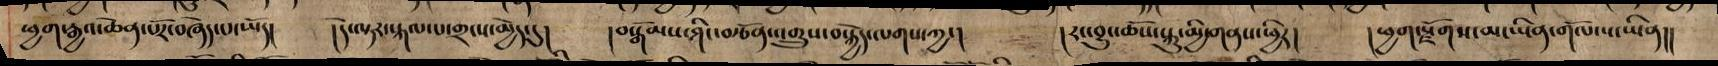ཕྱག་རྒྱའ་ཆེན་པོར་བཞེད་པ་ཡོད། །དེ་ལྟར་སྐལ་པ་གྲངས་མྱེད་དུ། །བསྒོམས་ཤིང་བརྩོན་འགྲུས་བསྐྱེད་ལགས་ཀྱང། །རང་བྱུང་ཆོས་སྐུ་མྱི་གནས་ཕྱིར། །ཕྱག་སྫོགས་མ་ཡིན་གོལ་ས་ཡིན།།
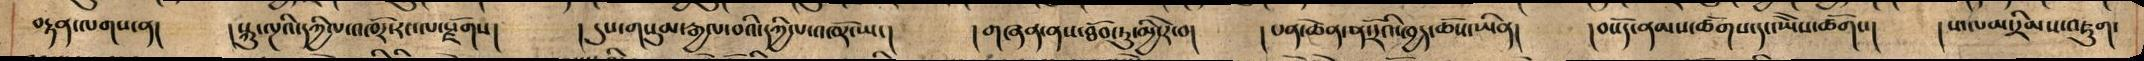བརྟན་ལགས་ན། །སྐུ་ལྔའི་དཀྱིལ་འཁོར་རང་ལ་སྫོགས། །དུས་གསུམ་རྒྱལ་བའི་དཀྱིལ་འཁོར་ཡང། །གཞན་ནས་ཐོབ་ཏུ་མྱི་རེ་བ། །པན་ཆེན་ན་རོའི་ཁྱད་ཆོས་ཡིན། །བསོད་ནམས་ཚོགས་དང་ཡཻ་ཚོགས། །ས་ལམ་དྲི་མས་འཇུག་
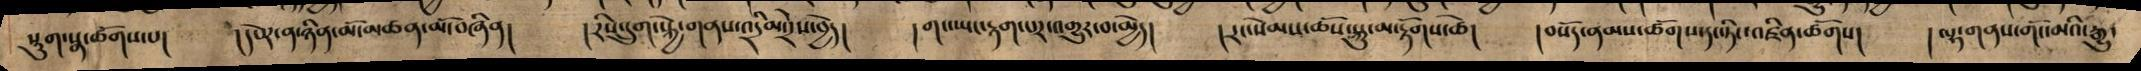སྡུག་སྣ་ཚོགས་པ། །དཔེར་ན་ཉིན་མོ་མཚན་བཞིན། །རིས་དྲུག་སྐྱེ་གནས་འདྲིམ་དྲེས་བྱེད། །གང་ཡང་རྟག་པར་འགྱུར་བ་མྱེད། །རང་སེམས་ཆོས་སྐུ་མ་རྟོགས་ཚེ། །བསོད་ནམས་ཚོགས་དང་ཏིང་འཛིན་ཚོགས། །ལྷ་གནས་གོང་མའི་རྒྱུ་
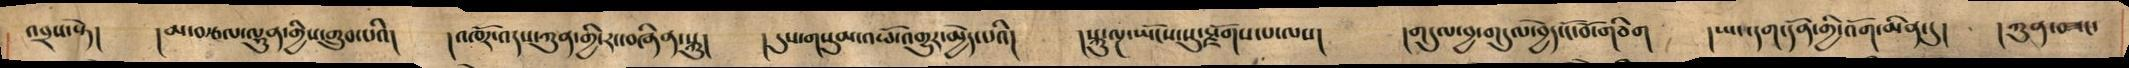འབྲས་སྟེ། །མ་བརྩལ་ལྷུན་གྱིས་གྲུབ་པའི། །འཁོར་འདས་ཀུན་གྱི་རང་བཞིན་སྐུ། །དུས་གསུམ་འཕོ་འགྱུར་མྱེད་པའི། །སྐུ་ལྔ་ཡོངས་སུ་སྫོགས་པ་ལས། །གདུལ་བྱ་གདུལ་བྱེད་ངོ་བོ་གཅིག །ཡང་དག་དོན་གྱི་འོག་མིན་དུ། །ཀུན་བཟང་
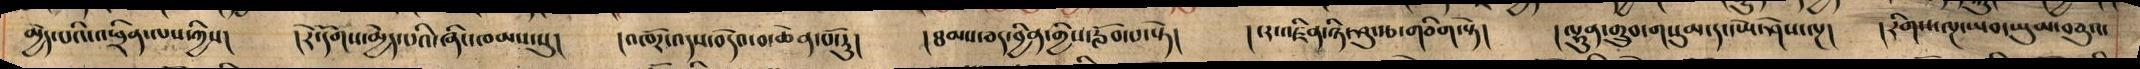མྱེད་པའི་འཕྲིན་ལས་ཀྱིས། །རེ་དོགས་མྱེད་པའི་ཞིང་ཁམས་སུ། །འཁོར་འདས་བདེའ་བ་ཆེན་པོ་རུ། །ཐམས་ཅད་བྱིན་གྱིས་རློབ་པ་སྟེ། །ངར་འཛིན་ཉི་ཤུ་རྩ་གཅིག་སྟེ། །ལྷུན་གྲུབ་གསུམ་དང་ཡེ་ཤེས་ལྔ། །རིགས་ལྔ་ཡབ་ཡུམ་བཅུའ་
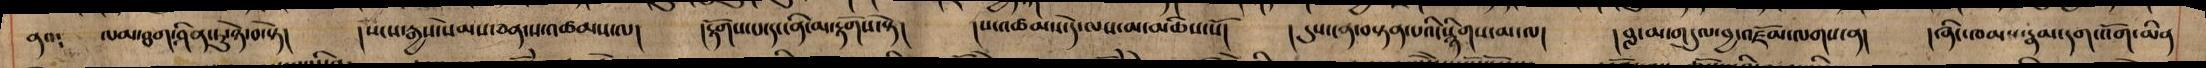ནའ༴ ལམ་ཐག་ཤིན་ཏུ་ཉེ་བ་སྟེ། །སངས་རྒྱས་སེམས་ཅན་ས་འཚམས་ལ། །རྟོགས་པ་དང་ནི་མ་རྟོགས་སྟེ། །ས་འཚམས་དེ་ལས་མ་མཆིས་སོ། །དུས་ངན་བསྟན་པའི་སྙིགས་མ་ལ། །བླ་མ་གདུལ་བྱ་འཛོམ་ལགས་ན། །ཞིང་ཁམས་རྣམ་དག་འོག་མིན་
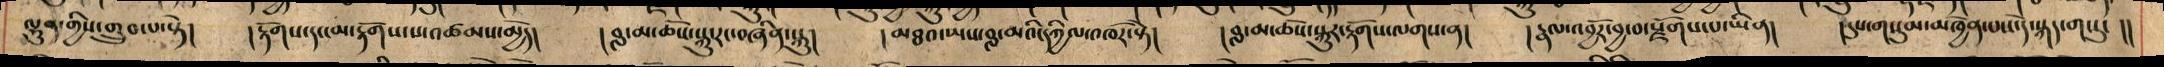ལྷུན་གྱིས་གྲུབ་པ་སྟེ། །རྟོགས་དང་མ་རྟོགས་ས་འཚམས་མྱེད། །བླ་མ་ཆོས་སྐུ་རང་བཞིན་སྐུ། །མཐའ་ཡས་བླ་མའི་དཀྱིལ་འཁོར་སྟེ། །བླ་མ་ཆོས་སྐུར་རྟོགས་ལགས་ན། །རྣལ་འབྱོར་བྱ་བ་སྫོགས་པ་ཡིན། །དུས་གསུམ་མཁྱེན་པས་དེ་སྐད་དུ་ །།
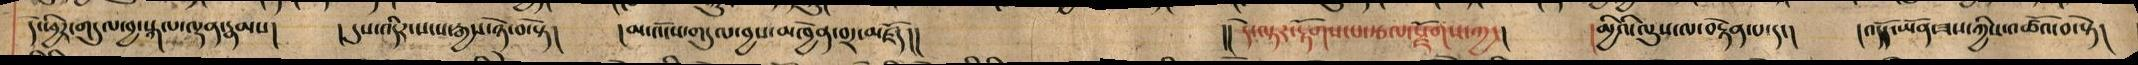དེ་ཕྱིར་གདུལ་བྱ་སྐལ་ལྡན་རྣམས། །དུས་འདིར་སངས་རྒྱས་ཉེ་བ་སྟེ། །མ་འོངས་གདུལ་བྱས་མཁྱེན་བར་མཛོད།། །།དེ་ལྟར་རྟོགས་པ་རྩལ་སྫོགས་ཀྱང། །མྱིའི་ལུས་ལ་བརྟེན་པ་དང། །འདོད་ཡོན་ཟས་ཀྱིས་འཚོའ་བ་སྟེ།
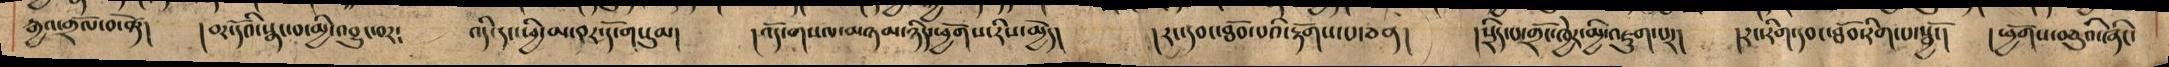རྒྱའ་གྲོལ་སྟེ། །བར་དོའི་སྣང་བ་མྱི་འབྱུང་བར༴ འདི་དང་ཕྱི་མ་བར་དོ་གསུམ། །འོད་གསལ་མཉམ་ཉིད་ཕྱོགས་རིས་མྱེད། །རང་དབང་ཐོབ་པའི་རྟོགས་པ་ཅན། །སྲིད་པ་གྲོང་ཁྱེར་མྱི་འཇུག་པར། །རང་རིག་དབང་ཐོབ་རིག་པ་སྦྱོང། །ཕྱོགས་བཅུའི་ཞིང་
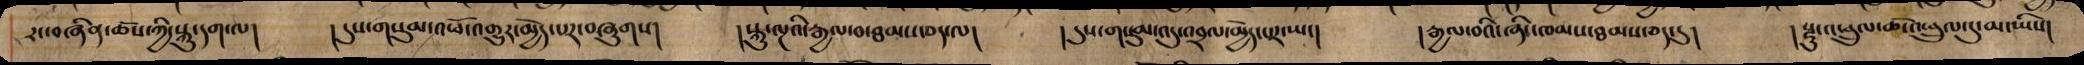རང་བཞིན་ཆོས་ཀྱི་སྐུ་དག་ལ། །དུས་གསུམ་འཕོ་འགྱུར་མྱེད་པར་བཞུགས། །སྐུ་ལྔའི་རྒྱལ་བ་ཐམས་ཅད་ལ། །དུས་གསུམ་འདུ་འབྲལ་མྱེད་པར་ཡང། །རྒྱལ་བའི་ཞིང་ཁམས་ཐམས་ཅད་དུ། །སྫུ་འཕྲུལ་ཆོ་འཕྲུལ་དུ་མ་ཡིས།
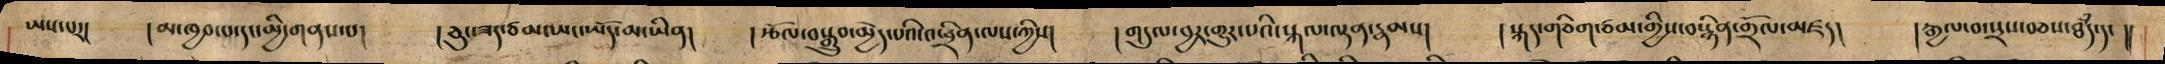ཡས་པར། །མ་ཁྱབ་པ་དང་མྱི་གནས་པ། །ཅུང་ཟད་ཙམ་ཡང་ཡོད་མ་ཡིན། །རྩོལ་བསྒྲུབ་མྱེད་པའི་འཕྲིན་ལས་ཀྱིས། །གདུལ་བྱར་གྱུར་པའི་སྐལ་ལྡན་རྣམས། །སྐད་གཅིག་ཙམ་གྱིས་བསྙིན་གྲོལ་མཛད། །རྒྱལ་བ་སྲས་བཅས་ཐཾད་དང །།
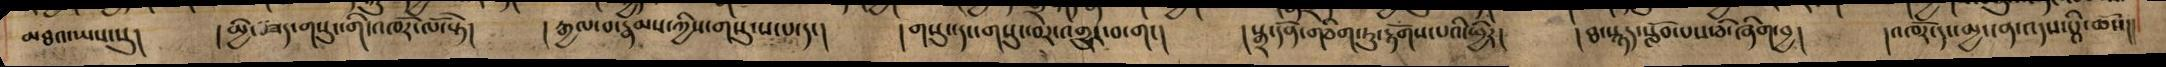མཐའ་ཡས་སུ། །མྱི་ཟད་གསུང་གི་འཁོར་ལོ་སྟེ། །རྒྱལ་བ་རྣམས་ཀྱིས་གསུངས་པ་དང། །གསུང་དང་གསུང་བར་འགྱུར་བ་གང། །སྒྲ་དོན་གཅིག་ཏུ་རྟོགས་པའི་ཕྱིར། །ཐ་སྙད་སློབ་པས་ཅི་ཞིག་བྱ། །འཁོར་དང་མྱ་ངན་འདས་པི་ཆོས།།
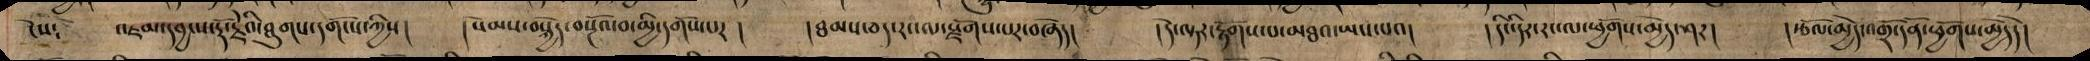ངེས༴ འཇམ་དབཡྔས་རྡོ་རྗེའི་ཐུགས་དགོངས་ཀྱིས། །སེམས་བསྐྱེད་བསྔོའ་བ་མྱི་དགོས་པར། ཐམས་ཅད་རང་ལ་སྫོགས་པར་བཞེད། །དེ་ལྟར་རྟོགས་པ་མཐའ་ཡས་པའ། །དི་དིར་རང་ལ་ཕྱོགས་མྱེད་ཤར། །རྩོལ་མྱེད་འགྲོ་དོན་ཕྱོགས་མྱེདདེ།
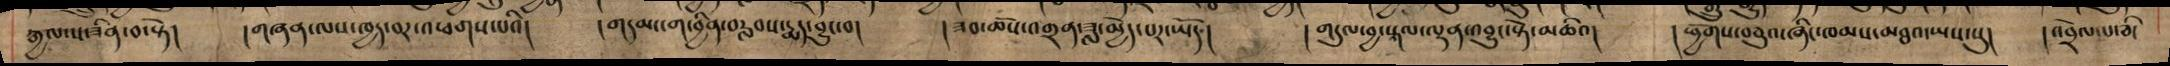རྒྱལ་ས་ཟིན་བ་སྟེ། །གཞན་ལས་ཁྱད་བར་འཕགས་པའི། །གདམ་ངག་བྱིན་བརླབས་རྨད་བྱུང་བ། །ཟབ་ཆོས་འགྲན་ཟླ་མྱེད་པར་ཡོད། །གདུལ་བྱ་སྐལ་ལྡན་འབྱུང་སྟེ་མཆིའ། །ཕྱོགས་བཅུའ་ཞིང་ཁམས་མཐའ་ཡས་སུ། །འབྲེལ་པ་ཅི་
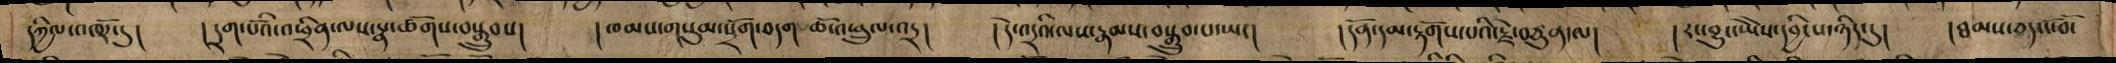དཀྱིལ་འཁོར་དུ། །དྲག་པོའི་འཕྲིན་ལས་སྣ་ཚོགས་བསྒྲུབས། །ཁམས་གསུམ་སྲོག་བདག་ཆོ་འཕྲུལ་འདྲ། །དེ་འདྲའི་ལས་རྣམས་བསྒྲུབ་པ་ཡང། །དོན་དམ་རྟོགས་པའི་རྗེ་བཙུན་ལ། །རང་བྱུང་ཡཻས་དབྱིངས་ཉིད་དུ། །ཐམས་ཅད་ངོ་བོ་
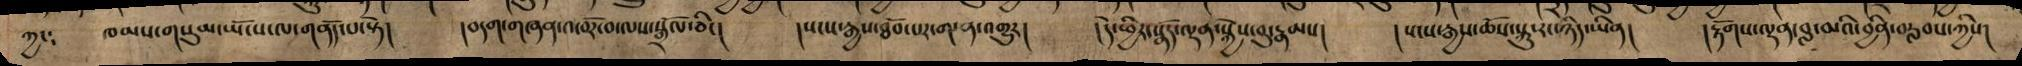ཀྱང༴ ཁམས་གསུམ་ཡོངས་ལ་གནོད་པ་སྟེ། །བདག་གཞན་འཁོར་བ་ལས་སྒྲོལ་ཅིང། །སངས་རྒྱས་ཐོབ་པར་ག་ན་འགྱུར། །དེ་ཕྱིར་སྣོད་ལྡན་སྐྱེས་བུ་རྣམས། །སངས་རྒྱས་ཆོས་སྐུ་རང་ཉིད་ཡིན། །རྟོགས་ལྡན་བླ་མའི་བྱིན་བརླབས་ཀྱིས།
